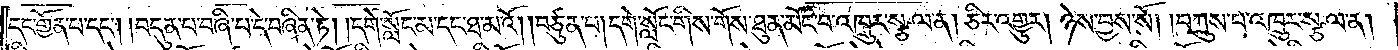དང་གྱོན་པ་དང༌། །བདུན་པ་བཞི་པ་དེ་བཞིན་ཏེ། །དགེ་སློང་མ་དང་ཐ་མའོ། །བཙུན་པ། དགེ་སློང་གིས་གོས་ཐུན་མོང་བ་འཁྲུར་སྩལ་ན། ཅིར་འགྱུར། ཉེས་བྱས་སོ། །བཀྲུས་པ་འཁྲུར་སྩལ་ན།
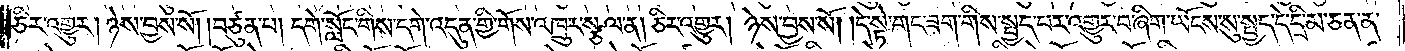ཅིར་འགྱུར། ཉེས་བྱས་སོ། །བཙུན་པ། དགེ་སློང་གིས་དགེ་འདུན་གྱི་གོས་འཁྲུར་སྩལ་ན། ཅིར་འགྱུར། ཉེས་བྱས་སོ། །དེ་སྟེ་གང་ཟག་གིས་སྤྱད་པར་འགྱུར་བ་ཞིག་ཡོངས་སུ་སྤྱད་དེ་དྲི་མ་ཅན་ན་
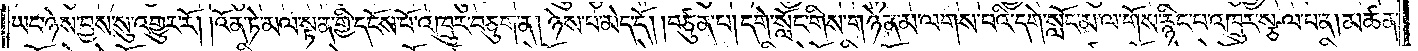ཡང་ཉེས་བྱས་སུ་འགྱུར་རོ། །འོན་ཏེ་མལ་སྟན་གྱི་དངོས་པོ་འཁྲུར་བཅུག་ན། ཉེས་པ་མེད་དོ། །བཙུན་པ། དགེ་སློང་གིས་གཉེན་མ་ལགས་པའི་དགེ་སློང་མ་ལ་གོས་རྙིང་པ་འཁྲུར་སྩལ་པ་ན། མཚན་
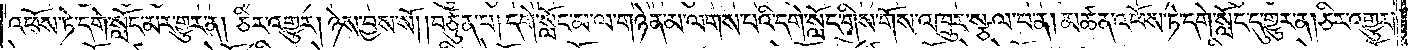འཕོས་ཏེ་དགེ་སློང་མར་གྱུར་ན། ཅིར་འགྱུར། ཉེས་བྱས་སོ། །བཙུན་པ། དགེ་སློང་མ་ལ་གཉེན་མ་ལགས་པའི་དགེ་སློང་གིས་གོས་འཁྲུར་སྩལ་བ་ན། མཚན་འཕོས་ཏེ་དགེ་སློང་དུ་གྱུར་ན། ཅིར་འགྱུར་
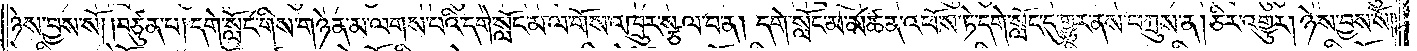ཉེས་བྱས་སོ། །བཙུན་པ། དགེ་སློང་གིས་གཉེན་མ་ལགས་པའི་དགེ་སློང་མ་ལ་གོས་འཁྲུར་སྩལ་བ་ན། དགེ་སློང་མ་མཚན་འཕོས་ཏེ་དགེ་སློང་དུ་གྱུར་ནས་བཀྲུས་ན། ཅིར་འགྱུར། ཉེས་བྱས་སོ།
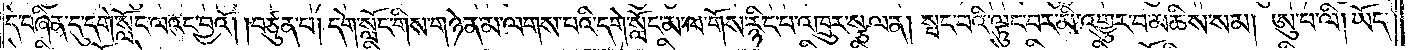དེ་བཞིན་དུ་དགེ་སློང་ལའང་བྱའོ། །བཙུན་པ། དགེ་སློང་གིས་གཉེན་མ་ལགས་པའི་དགེ་སློང་མ་ལ་གོས་རྙིང་པ་འཁྲུར་སྩལ་ན། སྤང་བའི་ལྟུང་བར་མི་འགྱུར་བ་མཆིས་སམ། ཨུ་པ་ལི། ཡོད་
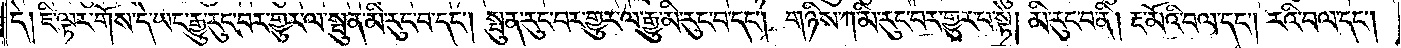དེ། ཇི་ལྟར་གོས་དེ་ཡང་རྒྱུ་རུང་བར་གྱུར་ལ་སྤུན་མི་རུང་བ་དང༌། སྤུན་རུང་བར་གྱུར་ལ་རྒྱུ་མི་རུང་བ་དང༌། གཉིས་ཀ་མི་རུང་བར་གྱུར་པ་སྟེ། མི་རུང་བ་ནི། རྔ་མོའི་བལ་དང༌། རའི་བལ་དང༌།
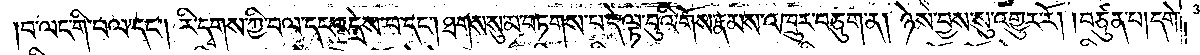བ་ལང་གི་བལ་དང༌། རི་དྭགས་ཀྱི་བལ་དང་འདྲེས་པ་དང༌། ཐགས་སུ་མ་བཏགས་པ་དེ་ལྟ་བུའི་གོས་རྣམས་འཁྲུར་བཅུག་ན། ཉེས་བྱས་སུ་འགྱུར་རོ། །བཙུན་པ། དགེ་
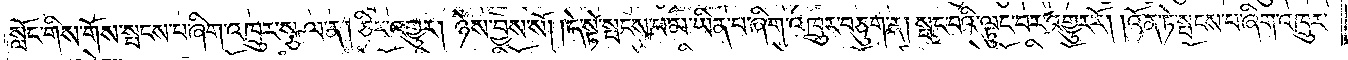སློང་གིས་གོས་སྤངས་བ་ཞིག་འཁྲུར་སྩལ་ན། ཅིར་འགྱུར། ཉེས་བྱས་སོ། །དེ་སྟེ་སྤངས་པ་མ་ཡིན་པ་ཞིག་འཁྲུར་བཅུག་ན། སྤང་བའི་ལྟུང་བར་འགྱུར་རོ། །འོན་ཏེ་སྤངས་པ་ཞིག་འཁྲུར་
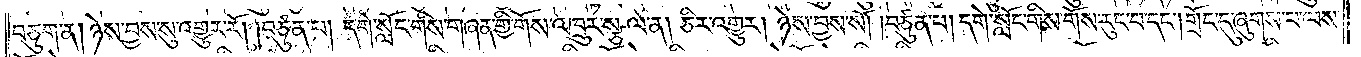བཅུག་ན། ཉེས་བྱས་སུ་འགྱུར་རོ། །བཙུན་པ། དགེ་སློང་གིས་གཞན་གྱི་གོས་འཁྲུར་སྩལ་ན། ཅིར་འགྱུར། ཉེས་བྱས་སོ། །བཙུན་པ། དགེ་སློང་གིས་གོས་རུང་བ་དང༌། གྲོང་དུ་ཞུགས་པ་ལས་
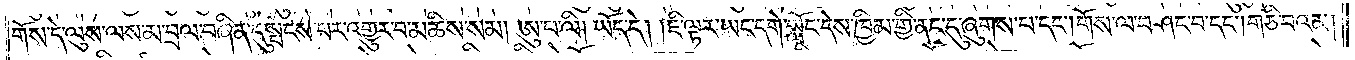གོས་དེ་ལུས་ལས་མ་བྲལ་བཞིན་དུ་སྤངས་པར་འགྱུར་བ་མཆིས་སམ། ཨུ་པ་ལི། ཡོད་དེ། །ཇི་ལྟར་ཡང་དགེ་སློང་དེས་ཁྱིམ་གྱི་ནང་དུ་ཞུགས་པ་དང༌། གོས་ལ་བཤང་བ་དང༌། གཅི་བའམ།
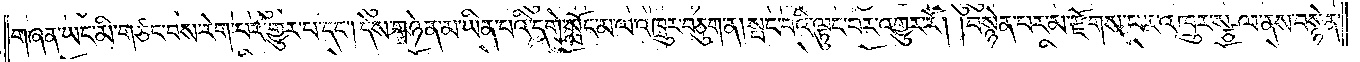གཞན་ཡང་མི་གཙང་བས་རེག་པར་གྱུར་པ་དང༌། དེས་གཉེན་མ་ཡིན་པའི་དགེ་སློང་མ་ལ་འཁྲུར་བཅུག་ན། སྤང་བའི་ལྟུང་བར་འགྱུར་རོ། །བསྙེན་པར་མ་རྫོགས་པར་འཁྲུར་སྩལ་ནས་བསྙེན་
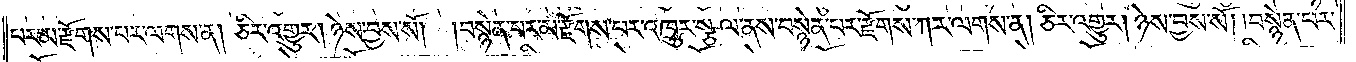པར་མ་རྫོགས་པར་ལགས་ན། ཅིར་འགྱུར། ཉེས་བྱས་སོ། །བསྙེན་པར་མ་རྫོགས་པར་འཁྲུར་སྩལ་ནས་བསྙེན་པར་རྫོགས་ཀར་ལགས་ན། ཅིར་འགྱུར། ཉེས་བྱས་སོ། །བསྙེན་པར་
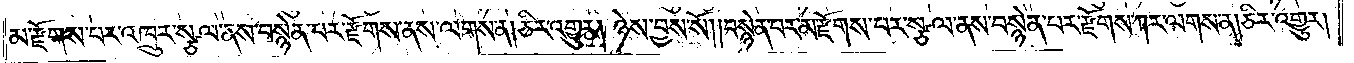མ་རྫོགས་པར་འཁྲུར་སྩལ་ནས་བསྙེན་པར་རྫོགས་ནས་ལགས་ན། ཅིར་འགྱུར། ཉེས་བྱས་སོ། །བསྙེན་པར་མ་རྫོགས་པར་སྩལ་ནས་བསྙེན་པར་རྫོགས་ཀར་ལགས་ན། ཅིར་འགྱུར།
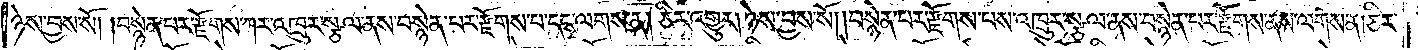ཉེས་བྱས་སོ། །བསྙེན་པར་རྫོགས་ཀར་འཁྲུར་སྩལ་ནས་བསྙེན་པར་རྫོགས་པ་དང་ལགས་ན། ཅིར་འགྱུར། ཉེས་བྱས་སོ། །བསྙེན་པར་རྫོགས་པས་འཁྲུར་སྩལ་ནས་བསྙེན་པར་རྫོགས་ནས་ལགས་ན། ཅིར་
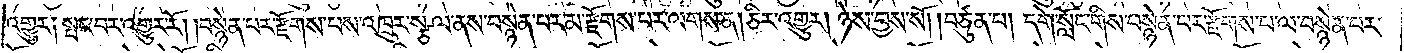འགྱུར༑ སྤང་བར་འགྱུར་རོ། །བསྙེན་པར་རྫོགས་པས་འཁྲུར་སྩལ་ནས་བསྙེན་པར་མ་རྫོགས་པར་ལགས་ན། ཅིར་འགྱུར། ཉེས་བྱས་སོ། །བཙུན་པ། དགེ་སློང་གིས་བསྙེན་པར་རྫོགས་པ་ལ་བསྙེན་པར་
